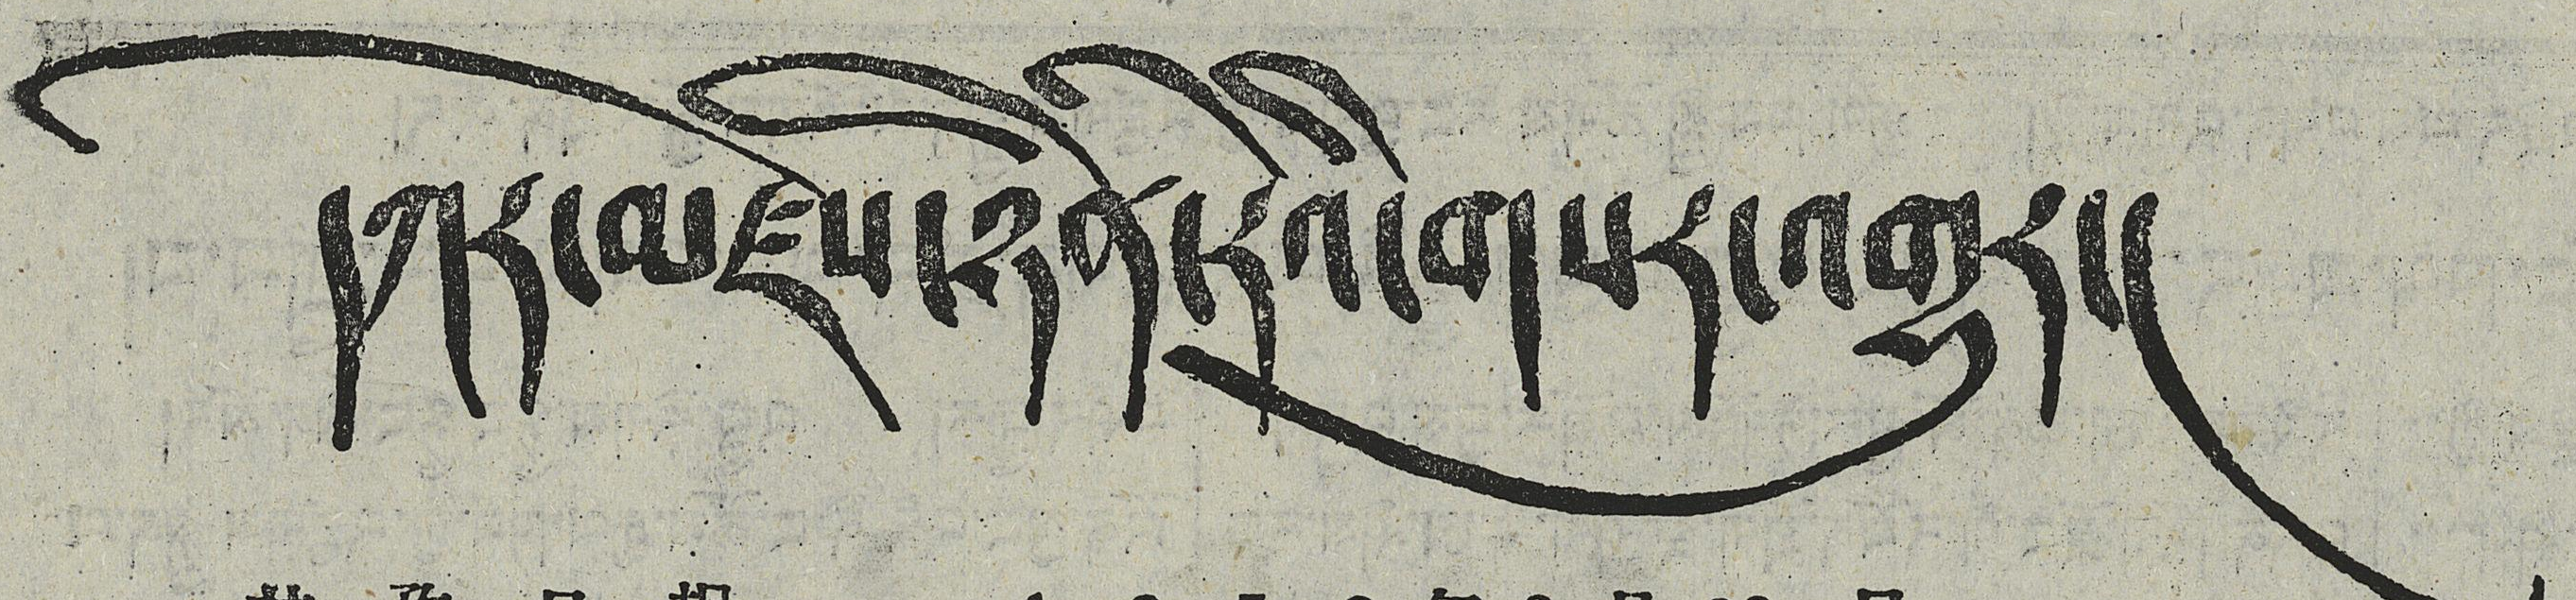དཀར་མཛེས་ཉིན་རེའི་གསར་འགྱུར།
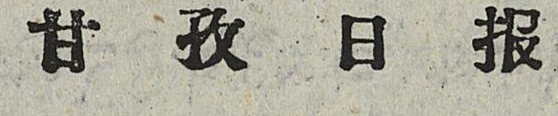甘 孜 日 报
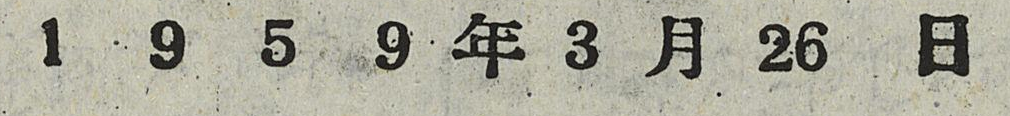1 9 5 9 年 3 月 28 日
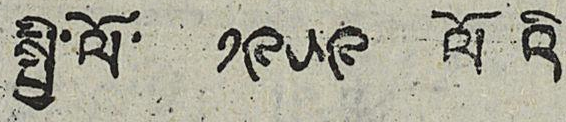སྤྱི་ལོ་ ༡༩༥༩ ལོའི
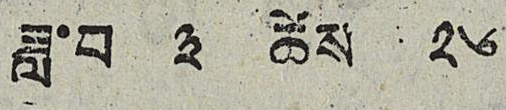ཟླ་བ ༣ ཚེས ༢༦
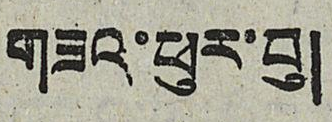གཟའ་ཕུར་བུ།
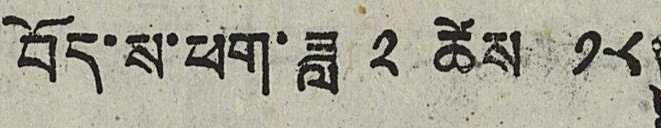བོད་ས་ཕག་ཟླ ༢ ཚེས ༡༨།
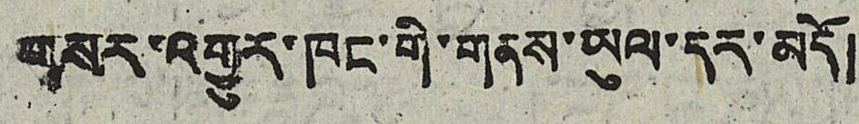གསར་འགྱུར་ཁང་གི་གནས་ཡུལ་དར་མདོ།
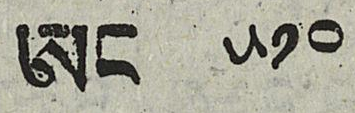ཨང ༥༡༠
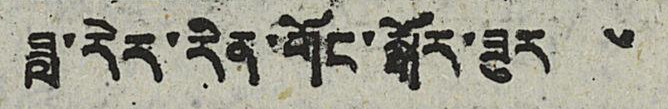ཟླ་རེར་རིན་གོང་སྒོར་ཟུར་ ༦
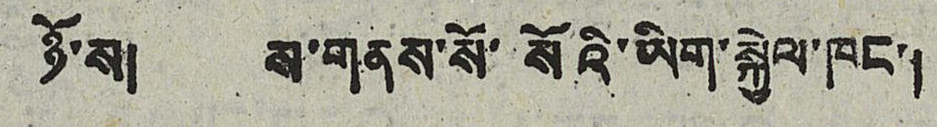ཉོ་ས། ས་གནས་སོ་སོའི་ཡིག་སྐྱེལ་ཁང་།
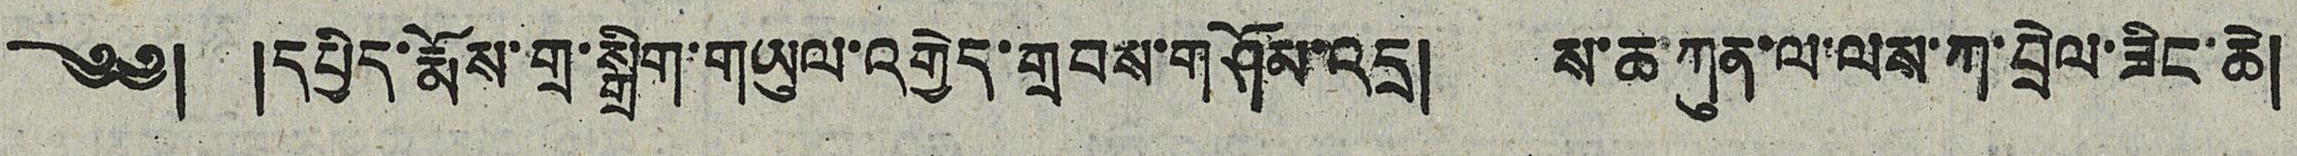༄༅། །དཔྱིད་རྨོས་གྲ་སྒྲིག་གཡུལ་འགྱེད་གྲབས་གཤོམ་འདྲ། ས་ཆ་ཀུན་ལ་ལས་ཀ་བྲེལ་ཟིང་ཆེ།
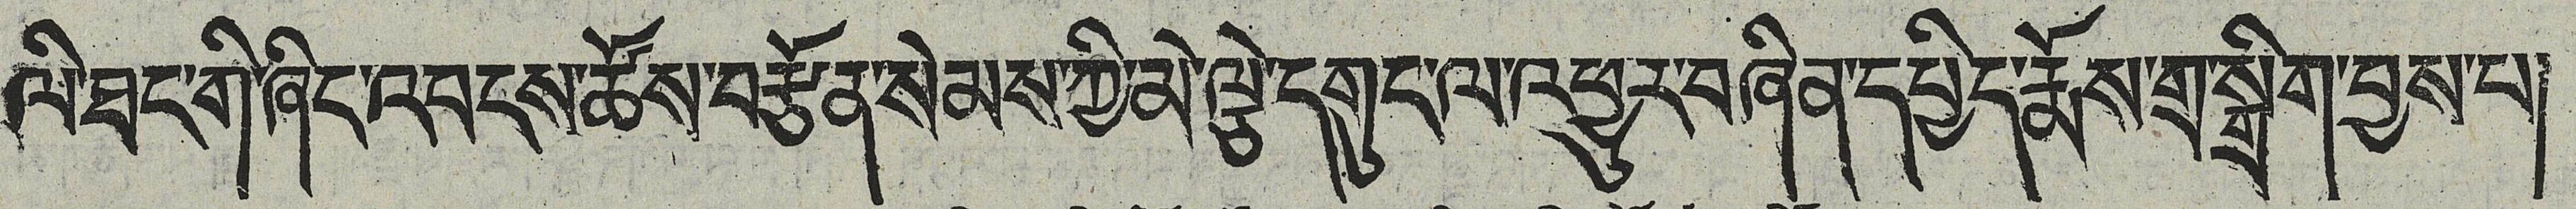ལི་ཐང་གི་ཞིང་འབངས་ཚོས་བརྩོན་སེམས་ཀྱི་མེ་ལྕེ་དགུང་ལ་འཕྱུར་བཞིན་དཔྱིད་རྨོས་གྲ་སྒྲིག་བྱས་པ།
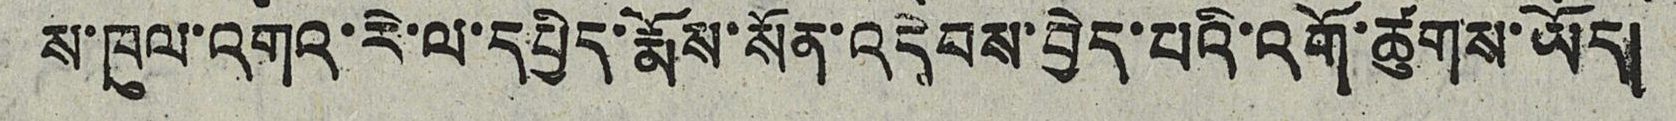ས་ཁུལ་འགའ་རེ་ལ་དཔྱིད་རྨོས་སོན་འདེབས་བྱེད་པའི་འགོ་ཚུགས་ཡོད།
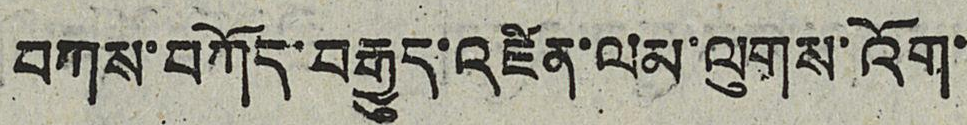བཀས་བཀོད་བརྒྱུད་འཛིན་ལམ་ལུགས་འོག་
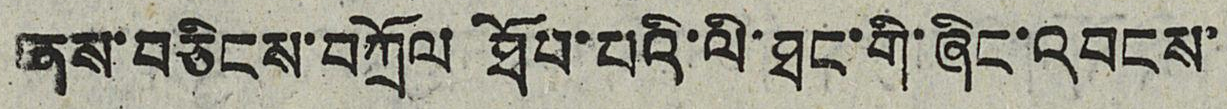ནས་བཅིངས་བཀྲོལ ཐོབ་པའི་ལི་ཐང་གི་ཞིང་འབངས་
